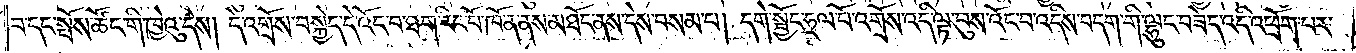བ་དང་སྤོས་ཚོང་གི་ཁྱེའུ་དེས། དེ་འགྲོས་བསྐྱེད་དེ་འོང་བ་ཐག་རིང་པོ་ཁོ་ན་ནས་མཐོང་ནས་དེས་བསམ་པ། དགེ་སྦྱོང་ཧྲལ་པོ་འགྲོས་འདི་ལྟ་བུས་འོང་བ་འདིས་བདག་གི་ལྷུང་བཟེད་འདི་འཕྲོག་པར་
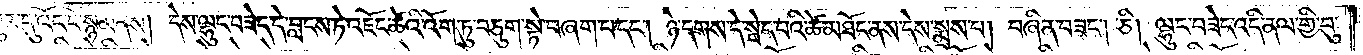འགྱུར་དུ་འོང་ངོ་སྙམ་ནས། དེས་ལྷུང་བཟེད་དེ་བླངས་ཏེ་འཇོང་ཚེའི་འོག་ཏུ་བཅུག་སྟེ་བཞག་པ་དང༌། ཉེ་དགས་དེ་སྦེད་པའི་ཚེ་མཐོང་ནས་དེས་སྨྲས་པ། བཞིན་བཟང་ཅི། ལྷུང་བཟེད་འདི་ནལ་གྱི་བུ་
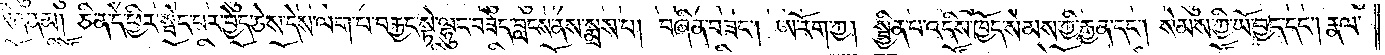ཡིན་ནམ། ཅི་ན་དེ་ཕྱིར་སྦེད་པར་བྱེད་ཅེས་དེས་ལག་པ་བརྐྱང་སྟེ་ལྷུང་བཟེད་བླངས་ནས་སྨྲས་པ། བཞིན་བཟང༌། ཨ་རོག་ཀྱ། སྦྱིན་པ་འདིས་ཁྱོད་སེམས་ཀྱི་རྒྱན་དང༌། སེམས་ཀྱི་ཡོ་བྱད་དང༌། རྣལ་
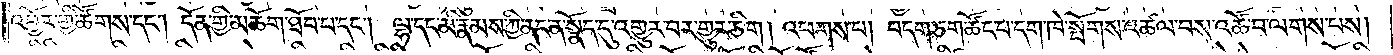འབྱོར་གྱི་ཚོགས་དང༌། དོན་གྱི་མཆོག་ཐོབ་པ་དང༌། ལྷ་དང་མི་རྣམས་ཀྱི་ནང་ན་སྣོད་དུ་འགྱུར་བར་གྱུར་ཅིག། འཕགས་པ། བདག་ཅག་ཚོང་པ་དག་ཁེ་སྤོགས་འཚལ་བས་འཚོ་བ་ལགས་པས།
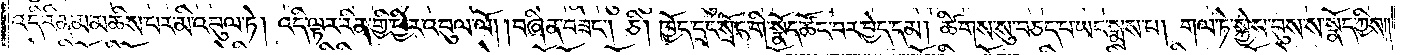འདི་རིན་མ་མཆིས་པར་མི་འབུལ་ཏེ། འདི་ལྟར་རིན་གྱི་ཕྱིར་འབུལ་ལོ། །བཞིན་བཟང༌། ཅི། ཁྱོད་དྲང་སྲོང་གི་སྣོད་ཚོང་བར་བྱེད་དམ། ཚིགས་སུ་བཅད་པ་ཡང་སྨྲས་པ། གལ་ཏེ་སྐྱེས་བུས་ས་སྣོད་ཀྱིས༎
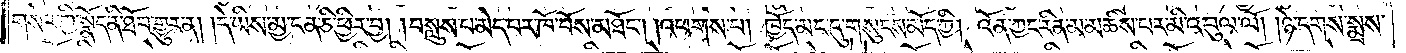གསེར་གྱི་སྣོད་ནི་ཐོབ་གྱུར་ན། །དེ་ཡིས་མྱ་ངན་ཅི་ཕྱིར་བྱ། །བསླུས་པ་མེད་པར་ཁོ་བོས་མཐོང༌། །འཕགས་པ། ཁྱོད་མང་དུ་གསུངས་མོད་ཀྱི། འོན་ཀྱང་རིན་མ་མཆིས་པར་མི་འབུལ་ལོ། །ཉེ་དགས་སྨྲས་
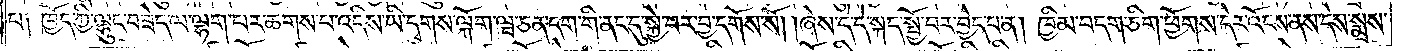པ། ཁྱོད་ཀྱི་ལྷུང་བཟེད་ལ་ལྷག་པར་ཆགས་པ་འདིས་ཡི་དྭགས་ལྐོག་ཝ་ཅན་དག་གི་ནང་དུ་སྐྱེ་བར་བྱ་དགོས་སོ། །ཞེས་དེ་དེ་སྐད་སྤྱོ་བར་བྱེད་པ་ན། ཁྱིམ་བདག་ཅིག་ཕྱོགས་དེར་འོངས་ནས་དེས་སྨྲས་
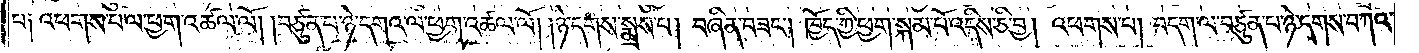པ༑ འཕགས་པ་ལ་ཕྱག་འཚལ་ལོ། །བཙུན་པ་ཉེ་དགའ་ལ་ཕྱག་འཚལ་ལོ། །ཉེ་དགས་སྨྲས་པ། བཞིན་བཟང༌། ཁྱོད་ཀྱི་ཕྱག་སྐམ་པོ་འདིས་ཅི་བྱ། འཕགས་པ། བདག་ལ་བཙུན་པ་ཉེ་དགས་བཀའ་
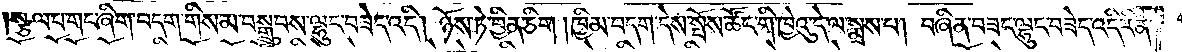སྩལ་པ་གང་ཞིག་བདག་གིས་མ་བསྒྲུབས་ལྷུང་བཟེད་འདི། ཉོས་ཏེ་བྱིན་ཅིག །ཁྱིམ་བདག་དེས་སྤོས་ཚོང་གི་ཁྱེའུ་དེ་ལ་སྨྲས་པ། བཞིན་བཟང་ལྷུང་བཟེད་འདི་རིན་
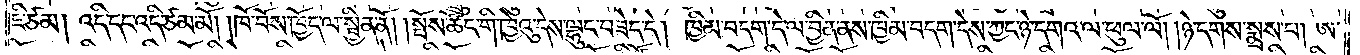ཇི་ཙམ། འདི་དང་འདི་ཙམ་མོ། །ཁོ་བོས་ཁྱོད་ལ་སྦྱིན་ནོ། །སྤོས་ཚོང་གི་ཁྱེའུ་དེས་ལྷུང་བཟེད་དེ། ཁྱིམ་བདག་དེ་ལ་བྱིན་ནས་ཁྱིམ་བདག་དེས་ཀྱང་ཉེ་དགའ་ལ་ཕུལ་ལོ། །ཉེ་དགས་སྨྲས་པ། ཨ་
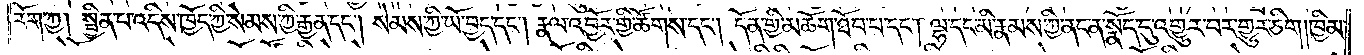རོག་ཀྱ། སྦྱིན་པ་འདིས་ཁྱོད་ཀྱི་སེམས་ཀྱི་རྒྱན་དང༌། སེམས་ཀྱི་ཡོ་བྱད་དང༌། རྣལ་འབྱོར་གྱི་ཚོགས་དང༌། དོན་གྱི་མཆོག་ཐོབ་པ་དང༌། ལྷ་དང་མི་རྣམས་ཀྱི་ནང་ན་སྣོད་དུ་འགྱུར་བར་གྱུར་ཅིག །ཁྱིམ་
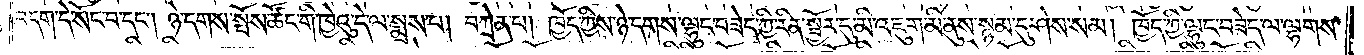བདག་དེ་སོང་བ་དང༌། ཉེ་དགས་སྤོས་ཚོང་གི་ཁྱེའུ་དེ་ལ་སྨྲས་པ། བཀྲེན་པ། ཁྱོད་ཀྱིས་ཉེ་དགས་ལྷུང་བཟེད་ཀྱི་རིན་སྦྱོར་དུ་མི་འཇུག་མི་ནུས་སྙམ་དུ་ཤེས་སམ། ཁྱོད་ཀྱི་ལྷུང་བཟེད་ལ་ལྷགས་
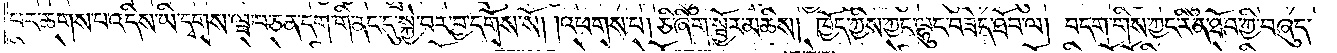པར་ཆགས་པ་འདིས་ཡི་དྭགས་ཝ་བ་ཅན་དག་གི་ནང་དུ་སྐྱེ་བར་བྱ་དགོས་སོ། །འཕགས་པ། ཅི་ཞིག་སྦྱོར་མཆིས། ཁྱོད་ཀྱིས་ཀྱང་ལྷུང་བཟེད་ཐོབ་ལ། བདག་གིས་ཀྱང་རིན་ཐོབ་ཀྱི་བཞུད་
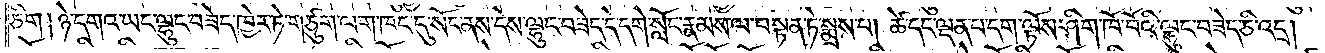ཅིག། ཉེ་དགའ་ཡང་ལྷུང་བཟེད་ཁྱེར་ཏེ་གཙུག་ལག་ཁང་དུ་སོང་ནས་དེས་ལྷུང་བཟེད་དེ་དགེ་སློང་རྣམས་ལ་བསྟན་ཏེ་སྨྲས་པ། ཚེ་དང་ལྡན་པ་དག་ལྟོས་ཤིག་ཁོ་བོའི་ལྷུང་བཟེད་ཅི་འདྲ།
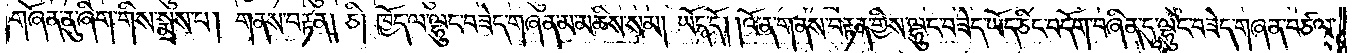གཞོན་ནུ་ཞིག་གིས་སྨྲས་པ། གནས་བརྟན། ཅི། ཁྱོད་ལ་ལྷུང་བཟེད་གཞན་མ་མཆིས་སམ། ཡོད་དོ། །འོ་ན་གནས་བརྟན་གྱིས་ལྷུང་བཟེད་ཡོད་ཅིང་བདོག་བཞིན་དུ་ལྷུང་བཟེད་གཞན་བཙལ་
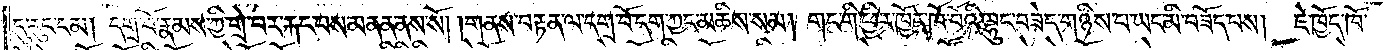དུ་རུང་ངམ། དགྲ་བོ་རྣམས་ཀྱི་གྲེ་བར་རྐང་པས་མནན་ནས་སོ། །གནས་བརྟན་ལ་དགྲ་བོ་དག་ཀྱང་མཆིས་སམ། གང་གི་ཕྱིར་ཁྱོད་ཁོ་བོའི་ལྷུང་བཟེད་གཉིས་པ་ཡང་མི་བཟོད་པས། ཇེ་ཁྱོད་ཁོ་
